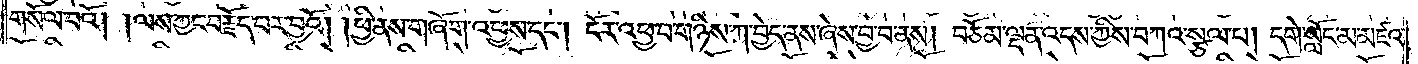གསོལ་བའོ། །ལས་ཀྱང་བརྗོད་པར་བྱའོ། །ཕྱི་ནས་གཞོག་འཕྱས་དང༌། ངོར་འཕྱ་བ་གཉིས་ཀ་བྱེད་ནས་ཞེས་བྱ་བ་ནས། བཅོམ་ལྡན་འདས་ཀྱིས་བཀའ་སྩལ་པ། དགེ་སློང་མ་མཛའ་
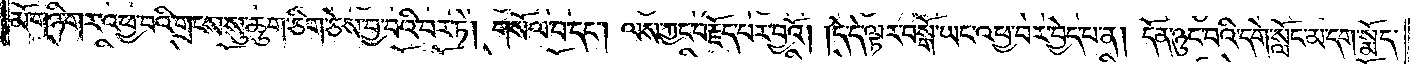མོ་གཉི་གར་འཕྱ་བའི་གྲངས་སུ་ཆུག་ཅིག་ཅེས་བྱ་བའི་བར་ཏེ། གསོལ་བ་དང༌། ལས་ཀྱང་བརྗོད་པར་བྱའོ། །དེ་དེ་ལྟར་བསྒོ་ཡང་འཕྱ་བར་བྱེད་པ་ན། དོན་ཉུང་བའི་དགེ་སློང་མ་དག་སྨོད་
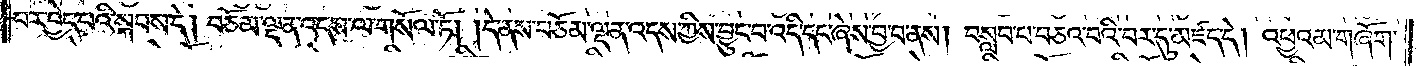པར་བྱེད་པའི་སྐབས་དེ། བཅོམ་ལྡན་འདས་ལ་གསོལ་ཏོ། །དེ་ནས་བཅོམ་ལྡན་འདས་ཀྱིས་བྱུང་བ་འདི་དང་ཞེས་བྱ་བ་ནས། བསླབ་པ་བཅའ་བའི་བར་དུ་མཛད་དེ། འཕྱའམ་གཞོག་
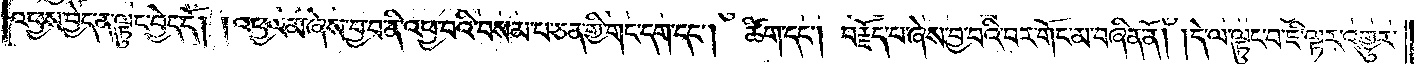འཕྱས་བྱེད་ན་ལྟུང་བྱེད་དོ། །འཕྱའམ་ཞེས་བྱ་བ་ནི་འཕྱ་བའི་བསམ་པ་ཅན་གྱི་གང་དག་དང༌། ཚིག་དང༌། བརྗོད་པ་ཞེས་བྱ་བའི་བར་གོང་མ་བཞིན་ནོ། །དེ་ལ་ལྟུང་བ་ཇི་ལྟར་འགྱུར་
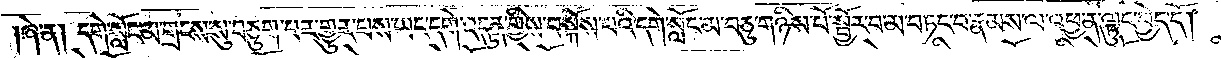ཞེ་ན། དགེ་སློང་མ་གྲངས་སུ་བཅུག་པར་གྱུར་པས་ཡང་དགེ་འདུན་གྱིས་བསྐོས་པའི་དགེ་སློང་མ་བཅུ་གཉིས་པོ་སྦྱོར་བ་མ་བཏང་བ་རྣམས་ལ་འཕྱ་ན་ལྟུང་བྱེད་དོ། །
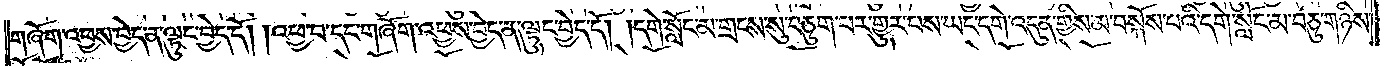གཞོག་འཕྱས་བྱེད་ན་ལྟུང་བྱེད་དོ། །འཕྱ་བ་དང་གཞོག་འཕྱས་བྱེད་ན་ལྟུང་བྱེད་དོ། །དགེ་སློང་མ་གྲངས་སུ་བཅུག་པར་གྱུར་པས་ཡང་དགེ་འདུན་གྱིས་མ་བསྐོས་པའི་དགེ་སློང་མ་བཅུ་གཉིས་
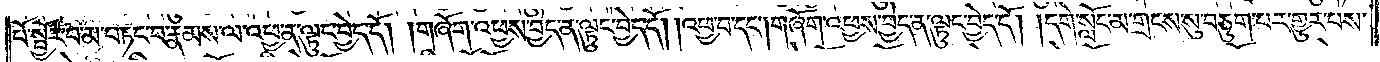པོ་སྦྱོར་བ་མ་བཏང་བ་རྣམས་ལ་འཕྱ་ན་ལྟུང་བྱེད་དོ། །གཞོག་འཕྱས་བྱེད་ན་ལྟུང་བྱེད་དོ། །འཕྱ་བ་དང༌། གཞོག་འཕྱས་བྱེད་ན་ལྟུང་བྱེད་དོ། །དགེ་སློང་མ་གྲངས་སུ་བཅུག་པར་གྱུར་པས་
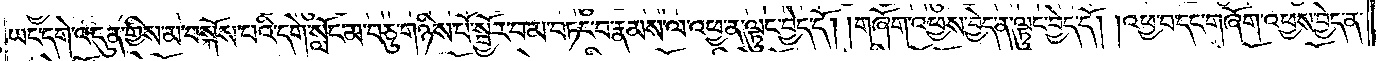ཡང་དགེ་འདུན་གྱིས་མ་བསྐོས་པའི་དགེ་སློང་མ་བཅུ་གཉིས་པོ་སྦྱོར་བ་མ་བཏང་བ་རྣམས་ལ་འཕྱ་ན་ལྟུང་བྱེད་དོ། །གཞོག་འཕྱས་བྱེད་ན་ལྟུང་བྱེད་དོ། །འཕྱ་བ་དང་གཞོག་འཕྱས་བྱེད་ན་
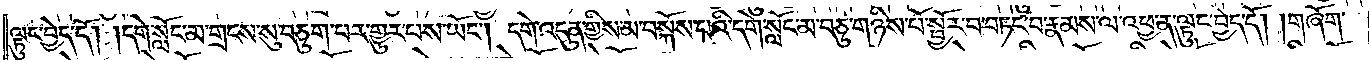ལྟུང་བྱེད་དོ། །དགེ་སློང་མ་གྲངས་སུ་བཅུག་པར་གྱུར་པས་ཡོང༌། དགེ་འདུན་གྱིས་མ་བསྐོས་པའི་དགེ་སློང་མ་བཅུ་གཉིས་པོ་སྦྱོར་བ་བཏང་བ་རྣམས་ལ་འཕྱ་ན་ལྟུང་བྱེད་དོ། །གཞོག་
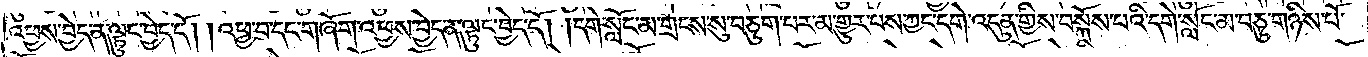འཕྱས་བྱེད་ན་ལྟུང་བྱེད་དོ། །འཕྱ་བ་དང་གཞོག་འཕྱས་བྱེད་ན་ལྟུང་བྱེད་དོ། །དགེ་སློང་མ་གྲངས་སུ་བཅུག་པར་མ་གྱུར་པས་ཀྱང་དགེ་འདུན་གྱིས་བསྐོས་པའི་དགེ་སློང་མ་བཅུ་གཉིས་པོ་
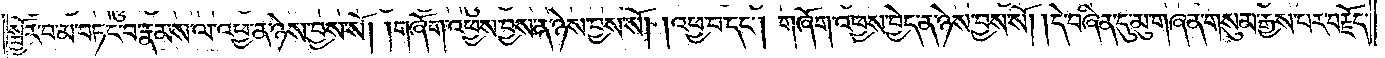སྦྱོར་བ་མ་བཏང་བ་རྣམས་ལ་འཕྱ་ན་ཉེས་བྱས་སོ། །གཞོག་འཕྱས་བྱས་ན་ཉེས་བྱས་སོ། །འཕྱ་བ་དང༌། གཞོག་འཕྱས་བྱེད་ན་ཉེས་བྱས་སོ། །དེ་བཞིན་དུ་མུ་གཞན་གསུམ་རྒྱས་པར་བརྗོད་
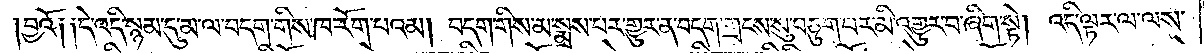བྱའོ། །དེ་འདི་སྙམ་དུ་མ་ལ་བདག་གིས་ཁ་རོག་པའམ། བདག་གིས་མ་སྨྲས་པར་གྱུར་ན་བདག་གྲངས་སུ་བཅུག་པར་མི་འགྱུར་བ་ཞིག་སྟེ། འདི་ལྟར་ལ་ལས་
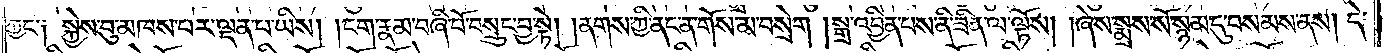ཀྱང༌། སྐྱེས་བུ་མཁས་པར་ལྡན་པ་ཡིས། །ངག་རྣམ་བཞི་པོ་བསྲུང་བྱ་སྟེ། །ནགས་ཀྱི་ནང་ན་གོས་མ་བསྲེག །སྒྲ་འབྱིན་པས་ནི་ཟིན་ལ་ལྟོས། །ཞེས་སྨྲས་སོ་སྙམ་དུ་བསམས་ནས། དེ་
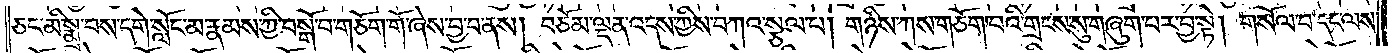ཅང་མི་སྨྲ་བས་དགེ་སློང་མ་རྣམས་ཀྱི་བསྒོ་བ་གཅོག་གོ་ཞེས་བྱ་བ་ནས། བཅོམ་ལྡན་འདས་ཀྱིས་བཀའ་སྩལ་པ། གཉིས་ཀས་གཅོག་པའི་གྲངས་སུ་གཞུག་པར་བྱ་སྟེ། གསོལ་བ་དང་ལས་
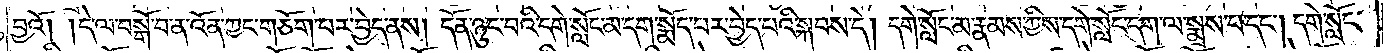བྱའོ། །དེ་ལ་བསྒོ་བ་ན་འོན་ཀྱང་གཅོག་པར་བྱེད་ནས། དོན་ཉུང་བའི་དགེ་སློང་མ་དག་སྨོད་པར་བྱེད་པའི་སྐབས་དེ། དགེ་སློང་མ་རྣམས་ཀྱིས་དགེ་སློང་དག་ལ་སྨྲས་པ་དང༌། དགེ་སློང་
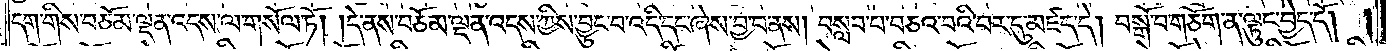དག་གིས་བཅོམ་ལྡན་འདས་ལ་གསོལ་ཏོ། །དེ་ནས་བཅོམ་ལྡན་འདས་ཀྱིས་བྱུང་བ་འདི་དང་ཞེས་བྱ་བ་ནས། བསླབ་པ་བཅའ་བའི་བར་དུ་མཛད་དེ། བསྒོ་བ་གཅོག་ན་ལྟུང་བྱེད་དོ། །
